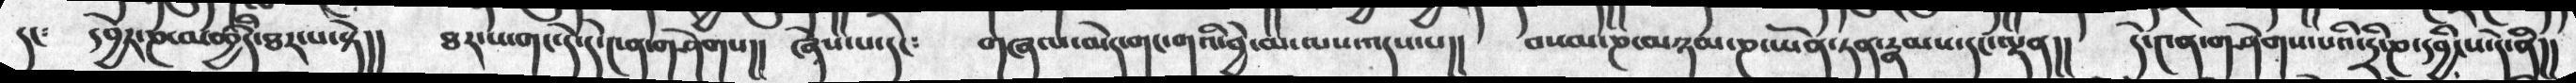དང་  དབྱེར་ཎ་མཚྱོད་ཐར་པ་སྟེ།།  ཐར་པ་གང་དེ་དེ་༤ན་གཤེགས།།  ཞེས་པ་དང༴  གཞལ་མེད་གང་གའི་བྱེ་མ་ལས་འདས་པ།།  བསམ་ཎ་མཉམ་ཎ་ཡོན་ཏན་རྣམས་དང་ལྡན།།  དེ་༤ན་གཤེགས་པའི་དྲི་ཎ་དབྱིངས་དེ་ནི།།
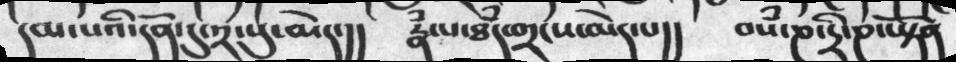དམ་པའི་དོན་དུ་༢་སུ་མེད་།།     རྣཾ་པ་ཐཾད་གྲངས་མེད་པ།།   བསཾ་ཎ་དྲི་ཎ་ཡྟོན
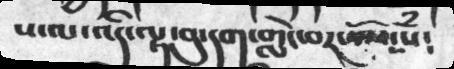ས་ལ་འདི་ལྟ་བུ་དག་གླེང་བར་ནུསོ་སེཾས་
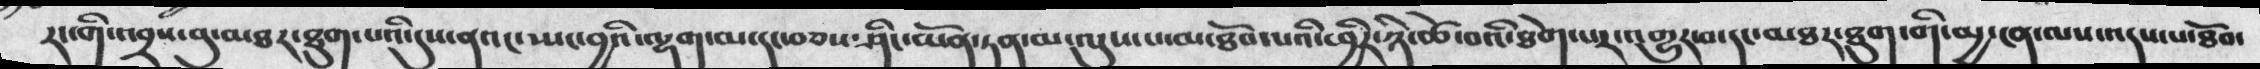རང་གི་འབྲས་བུ་མཐར་ཐུག་པའི་དུས་ནའང་ཡང་བྱའི་ལྷག་མ་དང་བཅས་ཤིང་ཡོན་ཏན་མ་ལུས་པ་མ་ཐོབ་པའི་ཕྱིར་ཉི་ཚེ་བའི་ཐེག་པར་འགྱུར་བ་དང་མཐར་ཐུག་གི་མྱ་ངན་ལས་འདས་པ་ཐོབ་
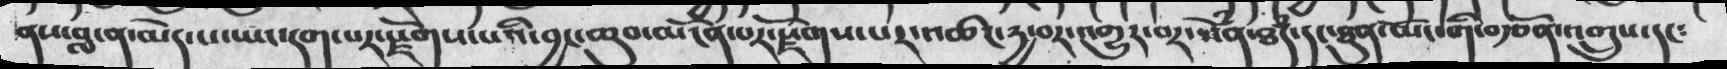ནས་བླ་ན་མེས་པ་ཡང་དག་པར་རྫོགས་པའི་བྱང་ཆུབ་མངོན་པར་རྫོགས་པར་འཚང་དྱ་བར་འགྱུར་བར་སེཾན་ཐཾད་དང་ཐུན་མོང་གི་བརྩོན་འགྲུས་དང༴
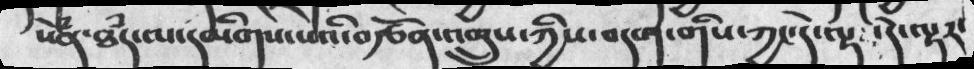སེཾན་ཐཾད་ལ་དམིགས་པའི་བརྩོན་འགྲུས་ཀྱིས་བདག་གིས་ཀྱང་དེ་ལྟ་ དེ་ལྟར་
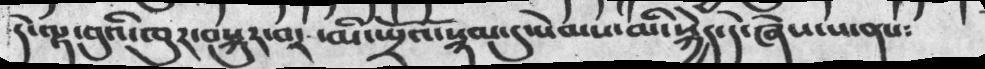དེ་ལྟ་བུའི་ཁུར་བསྐུར་བར་ མི་སྤྲོའོ་སྙམ་དུ་སེམས་མི་སྐྱེད་དེ་ཞེས་པ་ནས༴
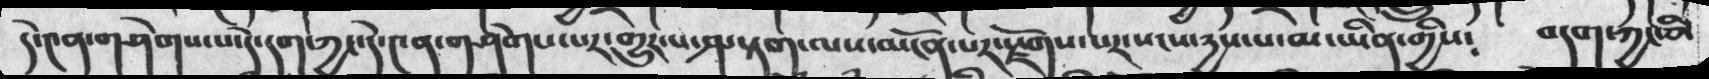དེ་༤ན་གཤེགས་པ་དེ་དག་ཀྱང་དེ་༤ན་གཤེགས་པར་གྱུར་པ་ཤ་སྟག་ལས་མངོན་པར་རྫོགས་པར་སངས་དྱས་པ་མ་ཡིན་གྱིས༴  བདག་ཀྱང་ཅི་
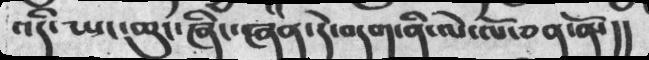འདི་ཡང་ཆུ་ཞིང་ཞན་དེ་བདག་ནི་ལེ་ལོ་ཅན་ནོ་།།
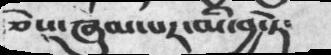ཅེས་ཞུམ་པར་མི་བྱ་ཏེ་
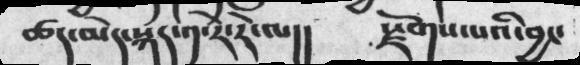ཚད་མེད་སྐད་༡་རེ་རེ་ལ།།   རྫོགས་པའི་བྱང་
